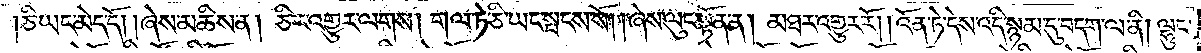།ཅི་ཡང་མེད་དོ། །ཞེས་མཆིས་ན། ཅིར་འགྱུར་ལགས། གལ་ཏེ་ཅི་ཡང་སྤངས་སོ། །ཞེས་ལུང་སྟོན་ན། མཐར་འགྱུར་རོ། །འོན་ཏེ་དེས་འདི་སྙམ་དུ་བདག་ལ་ནི། ལྷུང་
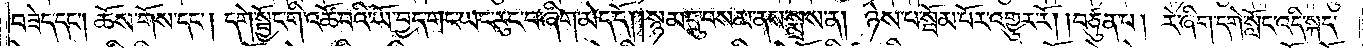བཟེད་དང༌། ཆོས་གོས་དང༌། དགེ་སྦྱོང་གི་འཚོ་བའི་ཡོ་བྱད་གང་ཡང་རུང་བ་ཞིག་མེད་དོ། །སྙམ་དུ་བསམ་ནས་སྨྲས་ན། ཉེས་པ་སྦོམ་པོར་འགྱུར་རོ། །བཙུན་པ། རེ་ཞིག་དགེ་སློང་འདི་སྐད་
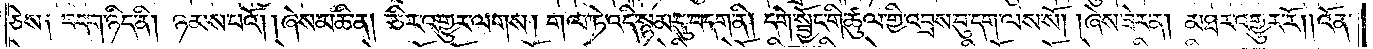ཅེས༑ བདག་ཉིད་ནི། ཉམས་པའོ། །ཞེས་མཆི་ན། ཅིར་འགྱུར་ལགས། གལ་ཏེ་འདི་སྙམ་དུ་བདག་ནི། དགེ་སྦྱོང་གི་ཚུལ་གྱི་འབྲས་བུ་དག་ལས་སོ། །ཞེས་ཟེར་ན། མཐར་འགྱུར་རོ། །འོན་
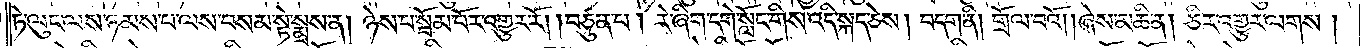ཏེ་ལུང་ལས་ཉམས་པ་ལས་བསམ་སྟེ་སྨྲས་ན། ཉེས་པ་སྦོམ་པོར་འགྱུར་རོ། །བཙུན་པ། རེ་ཞིག་དགེ་སློང་གིས་འདི་སྐད་ཅེས། བདག་ནི། གྲོལ་བའོ། །ཞེས་མཆི་ན། ཅིར་འགྱུར་ལགས།
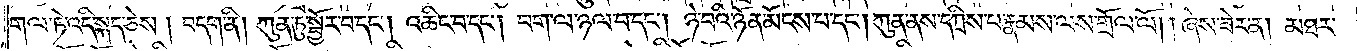གལ་ཏེ་འདི་སྐད་ཅེས། བདག་ནི། ཀུན་ཏུ་སྦྱོར་བ་དང༌། འཆིང་བ་དང༌། བག་ལ་ཉལ་བ་དང༌། ཉེ་བའི་ཉོན་མོངས་པ་དང༌། ཀུན་ནས་དཀྲིས་པ་རྣམས་ལས་གྲོལ་ལོ། །ཞེས་ཟེར་ན། མཐར་
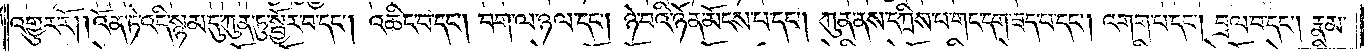འགྱུར་རོ། །འོན་ཏེ་འདི་སྙམ་དུ་ཀུན་ཏུ་སྦྱོར་བ་དང༌། འཆིང་བ་དང༌། བག་ལ་ཉལ་དང༌། ཉེ་བའི་ཉོན་མོངས་པ་དང༌། ཀུན་ནས་དཀྲིས་པ་གང་དག་ཟད་པ་དང༌། འགག་པ་དང༌། བྲལ་བ་དང༌། རྣམ་
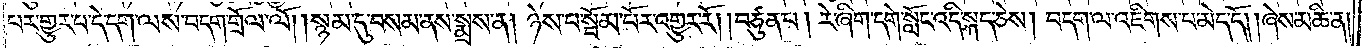པར་གྱུར་པ་དེ་དག་ལས་བདག་གྲོལ་ལོ། །སྙམ་དུ་བསམ་ནས་སྨྲས་ན། ཉེས་པ་སྦོམ་པོར་འགྱུར་རོ། །བཙུན་པ། རེ་ཞིག་དགེ་སློང་འདི་སྐད་ཅེས། བདག་ལ་འཇིགས་པ་མེད་དོ། །ཞེས་མཆི་ན།
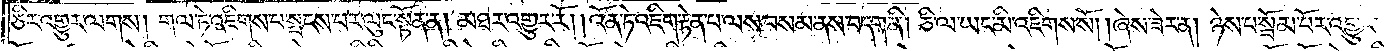ཅིར་འགྱུར་ལགས། གལ་ཏེ་འཇིགས་པ་སྤངས་པར་ལུང་སྟོན་ན། མཐར་འགྱུར་རོ། འོན་ཏེ་འཇིག་རྟེན་པ་ལས་བསམ་ནས་བདག་ནི། ཅི་ལ་ཡང་མི་འཇིགས་སོ། ཞེས་ཟེར་ན། ཉེས་པ་སྦོམ་པོར་འགྱུར་
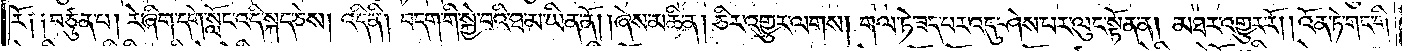རོ། །བཙུན་པ། རེ་ཞིག་དགེ་སློང་འདི་སྐད་ཅེས། འདི་ནི། བདག་གི་སྐྱེ་བའི་ཐ་མ་ཡིན་ནོ། །ཞེས་མཆི་ན། ཅིར་འགྱུར་ལགས། གལ་ཏེ་ཟད་པར་འདུ་ཤེས་པར་ལུང་སྟོན་ན། མཐར་འགྱུར་རོ། འོན་ཏེ་གང་གི་
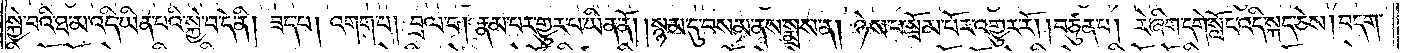སྐྱེ་བའི་ཐ་མ་འདི་ཡིན་པའི་སྐྱེ་བ་དེ་ནི། ཟད་པ། འགག་པ། བྲལ་བ། རྣམ་པར་གྱུར་པ་ཡིན་ནོ། །སྙམ་དུ་བསམ་ནས་སྨྲས་ན། ཉེས་པ་སྦོམ་པོར་འགྱུར་རོ། །བཙུན་པ། རེ་ཞིག་དགེ་སློང་འདི་སྐད་ཅེས། བདག་
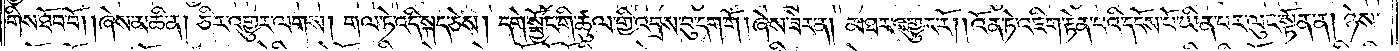གིས་ཐོབ་བོ། །ཞེས་མཆི་ན། ཅིར་འགྱུར་ལགས། གལ་ཏེ་འདི་སྐད་ཅེས། དགེ་སྦྱོང་གི་ཚུལ་གྱི་འབྲས་བུ་དག་གོ །ཞེས་ཟེར་ན། མཐར་འགྱུར་རོ། །འོན་ཏེ་འཇིག་རྟེན་པའི་དངོས་པོ་ཡིན་པར་ལུང་སྟོན་ན། ཉེས་
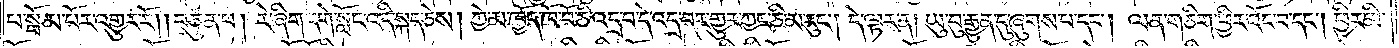པ་སྦོམ་པོར་འགྱུར་རོ། །བཙུན་པ། རེ་ཞིག་དགེ་སློང་འདི་སྐད་ཅེས། ཀྱེ་མ་ཁྱོད་ཁོ་བོ་ཅི་འདྲ་བ་དེ་འདྲ་བར་གྱུར་ཀྱང་ཅི་མ་རུང༌། དེ་ལྟར་ན། ཡུ་བུ་རྒྱུན་དུ་ཞུགས་པ་དང༌། ལན་གཅིག་ཕྱིར་འོང་བ་དང༌། ཕྱིར་མི་
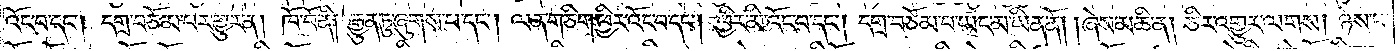འོང་བ་དང༌། དགྲ་བཅོམ་པར་གྱུར་ན། ཁོ་བོ་ནི། རྒྱུན་ཏུ་ཞུགས་པ་དང༌། ལན་གཅིག་ཕྱིར་འོང་བ་དང༌། ཕྱིར་མི་འོང་བ་དང༌། དགྲ་བཅོམ་པ་ཡང་མ་ཡིན་ནོ། །ཞེས་མཆི་ན། ཅིར་འགྱུར་ལགས། ཉེས་པ་
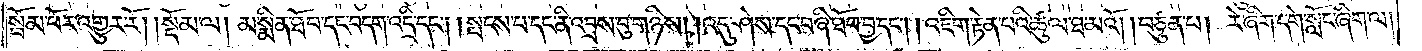སྦོམ་པོར་འགྱུར་རོ། །སྡོམ་ལ། མ་སྨིན་ཐོབ་དང་བདག་འདྲི་དང༌། །སྤངས་པ་དང་ནི་འབྲས་བུ་གཉིས། །འདུ་ཤེས་དང་བཞི་ཐོབ་བྱ་དང༌། །འཇིག་རྟེན་པའི་ཚུལ་ཐ་མའོ། །བཙུན་པ། རེ་ཞིག་དགེ་སློང་ཞིག་ལ།
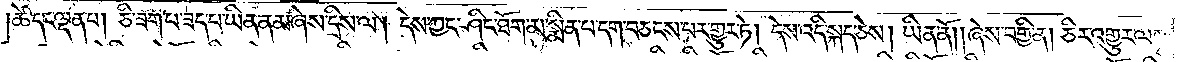།ཚེ་དང་ལྡན་པ། ཅི་ཟག་པ་ཟད་པ་ཡིན་ནམ་ཞེས་དྲིས་ལ། དེས་ཀྱང་ཤིང་ཐོག་མ་སྨིན་པ་དག་བཅངས་པར་གྱུར་ཏེ། དེས་འདི་སྐད་ཅེས། ཡིན་ནོ། །ཞེས་བགྱི་ན། ཅིར་འགྱུར་ལགས་
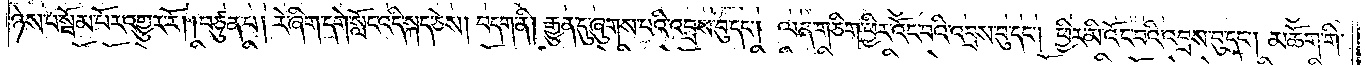ཉེས་པ་སྦོམ་པོར་འགྱུར་རོ། །བཙུན་པ། རེ་ཞིག་དགེ་སློང་འདི་སྐད་ཅེས། བདག་ནི། རྒྱུན་དུ་ཞུགས་པའི་འབྲས་བུ་དང༌། ལན་གཅིག་ཕྱིར་འོང་བའི་འབྲས་བུ་དང༌། ཕྱིར་མི་འོང་བའི་འབྲས་བུ་དང༌། མཆོག་གི་
